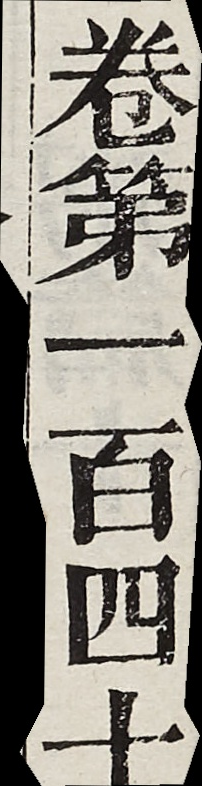卷第一百四十
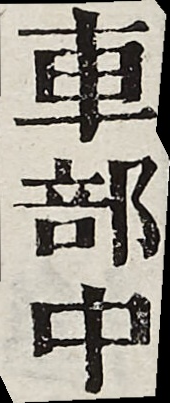車部中
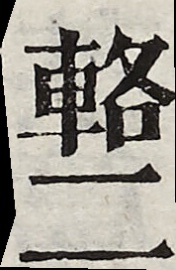輅二
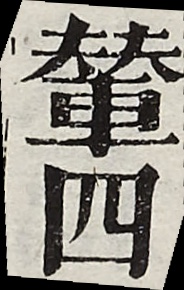輦四
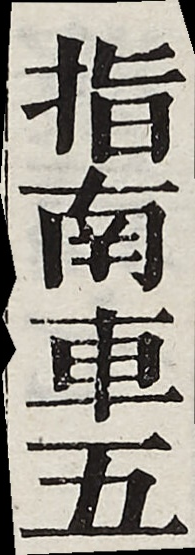指南車五
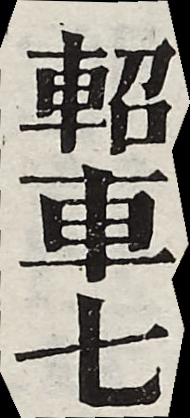軺車七
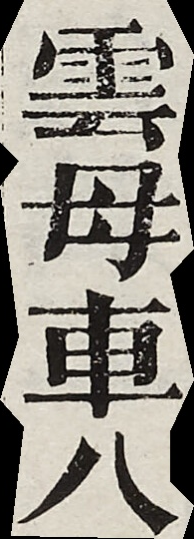雲母車八
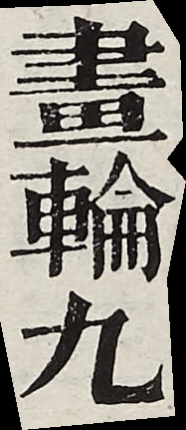畫輪九
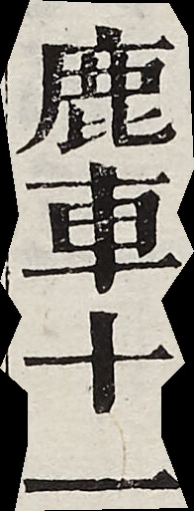鹿車十一
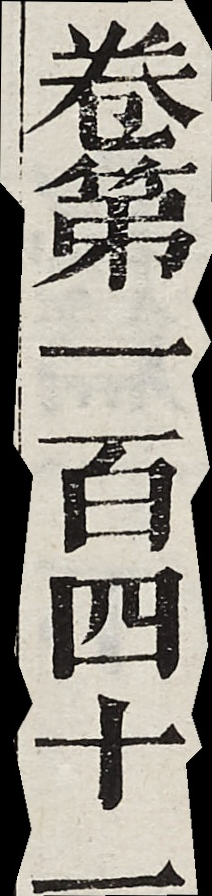卷第一百四十一
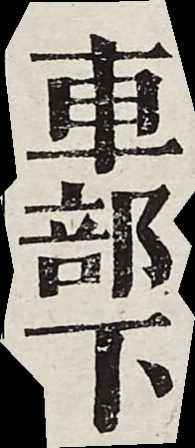車部下
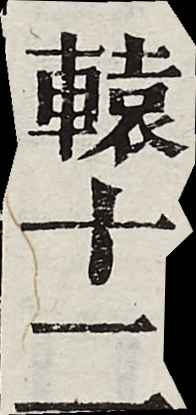轅十二
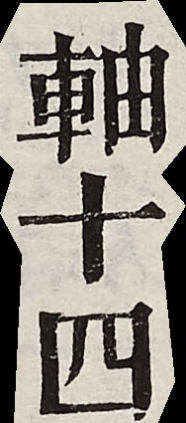軸十四
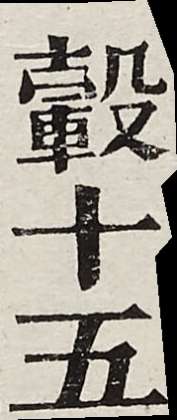轂十五
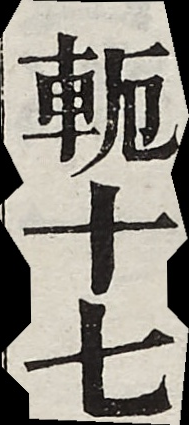軛十七
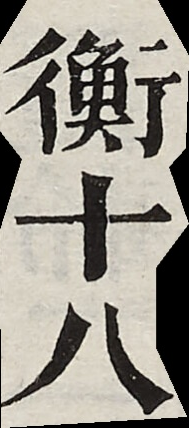衡十八
